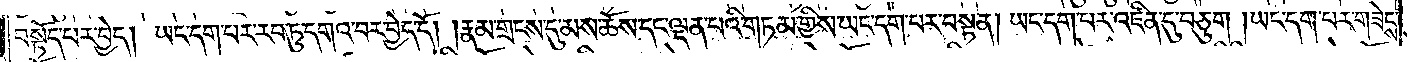བསྟོད་པར་བྱེད། ཡང་དག་པར་རབ་ཏུ་དགའ་བར་བྱེད་དོ། །རྣམ་གྲངས་དུ་མས་ཆོས་དང་ལྡན་པའི་གཏམ་གྱིས་ཡང་དག་པར་བསྟན། ཡང་དག་པར་འཛིན་དུ་བཅུག །ཡང་དག་པར་གཟེངས་
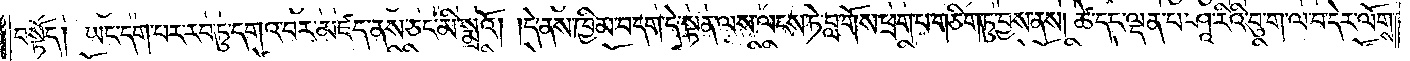བསྟོད། ཡང་དག་པར་རབ་ཏུ་དགའ་བར་མཛད་ནས་ཅང་མི་སྨྲའོ། །དེ་ནས་ཁྱིམ་བདག་དེ་སྟན་ལས་ལངས་ཏེ་བླ་གོས་ཕྲག་པ་གཅིག་ཏུ་བྱས་ནས། ཚེ་དང་ལྡན་པ་ཤཱ་རིའི་བུ་ག་ལ་བ་དེར་ལོགས་
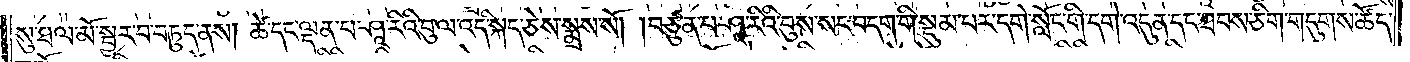སུ་ཐལ་མོ་སྦྱར་བ་བཏུད་ནས། ཚེ་དང་ལྡན་པ་ཤཱ་རིའི་བུ་ལ་འདི་སྐད་ཅེས་སྨྲས་སོ། །བཙུན་པ་ཤཱ་རིའི་བུས་སང་བདག་གི་སྡུམ་པར་དགེ་སློང་གི་དགེ་འདུན་དང་ཐབས་ཅིག་གདུགས་ཚོད་
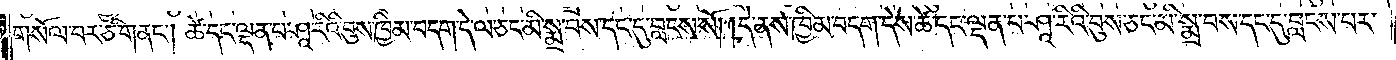གསོལ་བར་ཅི་གནང༌། ཚེ་དང་ལྡན་པ་ཤཱ་རིའི་བུས་ཁྱིམ་བདག་དེ་ལ་ཅང་མི་སྨྲ་བས་དང་དུ་བླངས་སོ། །དེ་ནས་ཁྱིམ་བདག་དེས་ཚེ་དང་ལྡན་པ་ཤཱ་རིའི་བུས་ཅང་མི་སྨྲ་བས་དང་དུ་བླངས་པར་
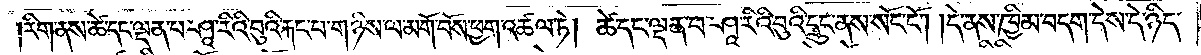རིག་ནས་ཚེ་དང་ལྡན་པ་ཤཱ་རིའི་བུའི་རྐང་པ་གཉིས་ལ་མགོ་བོས་ཕྱག་འཚལ་ཏེ། ཚེ་དང་ལྡན་པ་ཤཱ་རིའི་བུའི་དྲུང་ནས་སོང་ངོ༌། །དེ་ནས་ཁྱིམ་བདག་དེས་དེ་ཉིད་
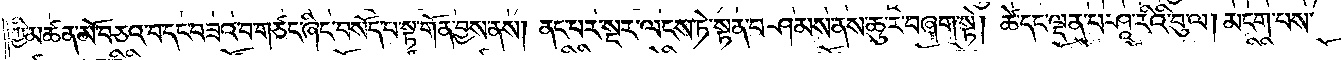ཀྱི་མཚན་མོ་བཅའ་བ་དང་བཟའ་བ་གཙང་ཞིང་བསོད་པ་སྟ་གོན་བྱས་ནས། ནང་པར་སྔར་ལངས་ཏེ་སྟན་བཤམས་ནས་ཆུ་ར་བཞག་སྟེ། ཚེ་དང་ལྡན་པ་ཤཱ་རིའི་བུ་ལ། མངག་པས་
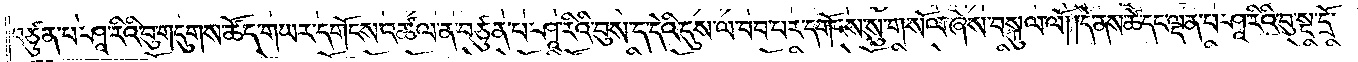བཙུན་པ་ཤཱ་རིའི་བུ་གདུགས་ཚོད་གཡར་དགོངས་འཚལ་ན་བཅུན་པ་ཤཱ་རིའི་བུས་ད་དེའི་དུས་ལ་བབ་པར་དགོངས་སུ་གསོལ་ཞེས་བསྐུལ་ལོ། །དེ་ནས་ཚེ་དང་ལྡན་པ་ཤཱ་རིའི་བུ་སྔ་དྲོ་
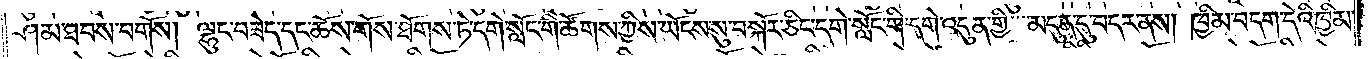ཤམ་ཐབས་བགོས། ལྷུང་བཟེད་དང་ཆོས་གོས་ཐོགས་ཏེ་དགེ་སློང་གི་ཚོགས་ཀྱིས་ཡོངས་སུ་སྐོར་ཅིང་དགེ་སློང་གི་དགེ་འདུན་གྱི་མདུན་དུ་བདར་ནས། ཁྱིམ་བདག་དེའི་ཁྱིམ་
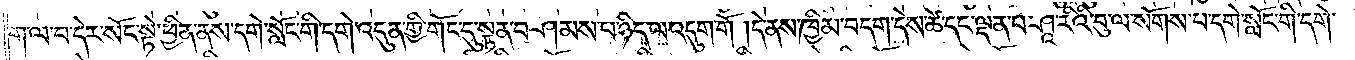ག་ལ་བ་དེར་སོང་སྟེ་ཕྱིན་ནས་དགེ་སློང་གི་དགེ་འདུན་གྱི་གོང་དུ་སྟན་བཤམས་པ་ཉིད་ལ་འདུག་གོ །དེ་ནས་ཁྱིམ་བདག་དེས་ཚེ་དང་ལྡན་པ་ཤཱ་རིའི་བུ་ལ་སོགས་པ་དགེ་སློང་གི་དགེ་
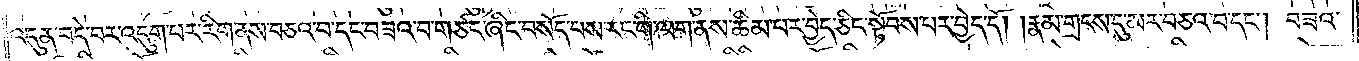འདུན་བདེ་བར་འདུག་པར་རིག་ནས་བཅའ་བ་དང་བཟའ་བ་གཙང་ཞིང་བསོད་པས་རང་གི་ལག་ནས་ཚིམ་པར་བྱེད་ཅིང་སྟོབས་པར་བྱེད་དོ། །རྣམ་གྲངས་དུ་མར་བཅའ་བ་དང༌། བཟའ་
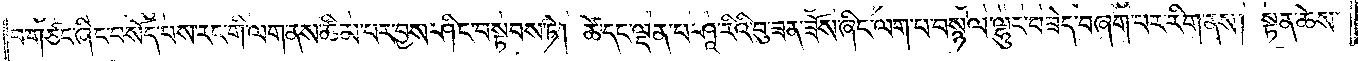བ་གཙང་ཞིང་བསོད་པས་རང་གི་ལག་ནས་ཚིམ་པར་བྱས་ཤིང་བསྟབས་ཏེ། ཚེ་དང་ལྡན་པ་ཤཱ་རིའི་བུ་ཟན་ཟོས་ཞིང་ལག་པ་བསྙལ་ལྷུང་བཟེད་བཞག་པར་རིག་ནས། སྟན་ཆེས་
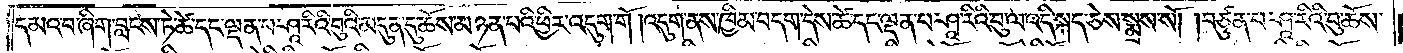དམའ་བ་ཞིག་བླངས་ཏེ་ཚེ་དང་ལྡན་པ་ཤཱ་རིའི་བུའི་མདུན་དུ་ཆོས་མཉན་པའི་ཕྱིར་འདུག་གོ །འདུག་ནས་ཁྱིམ་བདག་དེས་ཚེ་དང་ལྡན་པ་ཤཱ་རིའི་བུ་ལ་འདི་སྐད་ཅེས་སྨྲས་སོ། །བཙུན་པ་ཤཱ་རིའི་བུ་ཆོས་
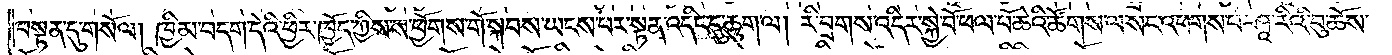བསྟན་དུ་གསོལ། ཁྱིམ་བདག་དེའི་ཕྱིར་ཁྱོད་ཀྱིས་ས་ཕྱོགས་གོ་སྐབས་ཡངས་པར་སྟན་འདིང་དུ་ཆུག་ལ། རི་བྲགས་འདིར་སྐྱེ་བོ་ཕལ་པོ་ཆེའི་ཚོགས་ལ་སང་འཕགས་པ་ཤཱ་རིའི་བུ་ཆོས་
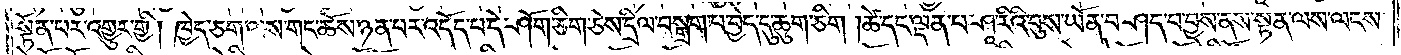སྟོན་པར་འགྱུར་གྱི། ཁྱེད་ཅག་ལས་གང་ཆོས་ཉན་པར་འདོད་པ་དེ་ཤོག་ཅིག་ཅེས་དྲིལ་བསྒྲག་པ་བྱེད་དུ་ཆུག་ཅིག །ཚེ་དང་ལྡན་པ་ཤཱ་རིའི་བུས་ཡོན་བཤད་པ་བྱས་ནས་སྟན་ལས་ལངས་
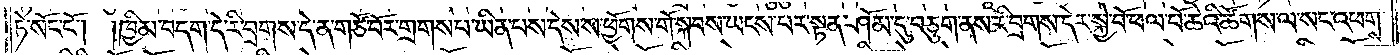ཏེ་སོང་ངོ༌། །ཁྱིམ་བདག་དེ་རི་བྲགས་དེ་ན་གཙོ་བོར་གྲགས་པ་ཡིན་པས་དེས་ས་ཕྱོགས་གོ་སྐབས་ཡངས་པར་སྟན་ཤོམ་དུ་བཅུག་ནས་རི་བྲགས་དེར་སྐྱེ་བོ་ཕལ་པོ་ཆེའི་ཚོགས་ལ་སང་འཕགས་
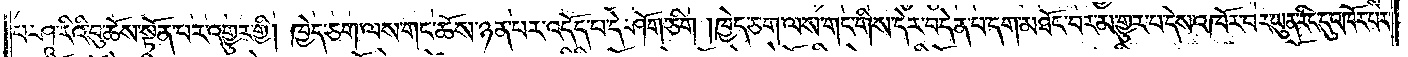པ་ཤཱ་རིའི་བུ་ཆོས་སྟོན་པར་འགྱུར་གྱི། ཁྱེད་ཅག་ལས་གང་ཆོས་ཉན་པར་འདོད་པ་དེ་ཤོག་ཅིག །ཁྱེད་ཅག་ལས་གང་གིས་དེར་བདེན་པ་དག་མཐོང་བར་མ་གྱུར་པ་དེས་འཁོར་བར་ཡུན་རིང་དུ་འཁོར་པར་
